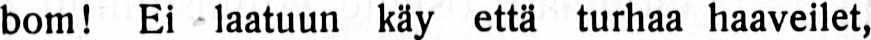bom! Ei laatuun käy että turhaa haaveilet,
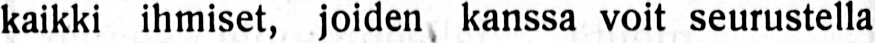kaikki ihmiset, joiden kanssa voit seurustella
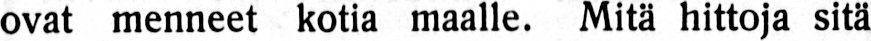ovat menneet kotia maalle. Mitä hittoja sitä
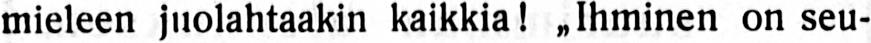mieleen juolahtaakin kaikkia! „Ihminen on seu-
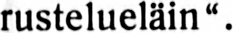rustelueläin".
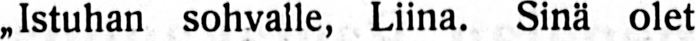„Istuhan sohvalle, Liina. Sinä olet yksin
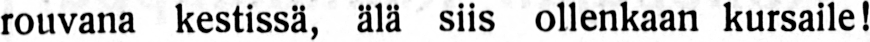rouvana kestissä, älä siis ollenkaan kursaile!
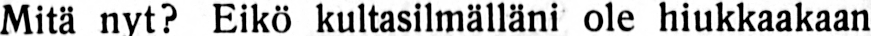Mitä nyt? Eikö kultasilmälläni ole hiukkaakaan
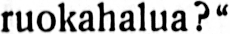ruokahalua?"
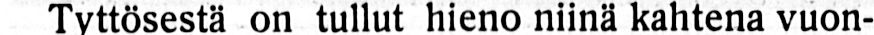Tyttösestä on tullut hieno niinä kahtena vuon-
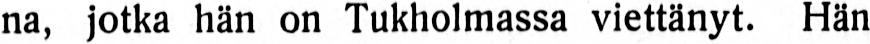na, jotka hän on Tukholmassa viettänyt. Hän
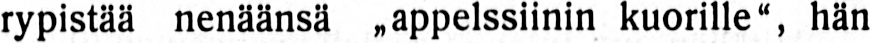rypistää nenäänsä „appelssiinin kuorille", hän
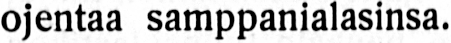ojentaa samppanialasinsa.
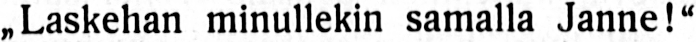„Laskehan minullekin samalla Janne!"
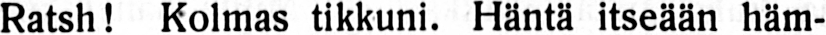Ratsh! Kolmas tikkuni. Häntä itseään häm-
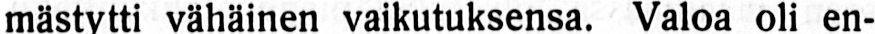mästytti vähäinen vaikutuksensa. Valoa oli en-
